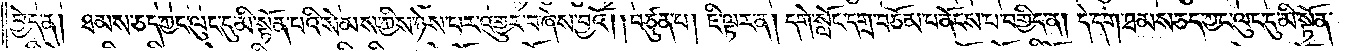བྱེད་ན། ཐམས་ཅད་ཀྱང་ལུང་དུ་མི་སྟོན་པའི་སེམས་ཀྱིས་ཉེས་པར་འགྱུར་བ་ཞེས་བྱའོ། །བཙུན་པ། ཇི་ལྟར་ན། དགེ་སློང་དགྲ་བཅོམ་པ་ནོངས་པ་བགྱིད་ན། དེ་དག་ཐམས་ཅད་ཀྱང་ལུང་དུ་མི་སྟོན་
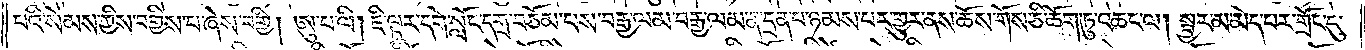པའི་སེམས་ཀྱིས་བགྱིས་པ་ཞེས་བགྱི། ཨུ་པ་ལི། ཇི་ལྟར་དགེ་སློང་དགྲ་བཅོམ་པས་བརྒྱ་ལམ་བརྒྱ་ལམ་ན་དྲན་པ་ཉམས་པར་གྱུར་ནས་ཆོས་གོས་ཅི་ཆོག་ཏུ་འཆང་ལ། སྦྱར་མ་མེད་པར་གྲོང་དུ་
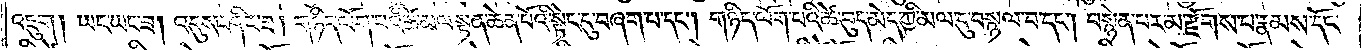འཇུག །ཡང་ཡང་ཟ། འདུས་ཤིང་ཟ། གཉིད་ལོག་པའི་ཚེ་མལ་སྟན་ཆེན་པོའི་སྟེང་དུ་བཞག་པ་དང༌། གཉིད་ལོག་པའི་ཚེ་བུད་མེད་ཀྱི་མལ་དུ་བསྙལ་བ་དང༌། བསྙེན་པར་མ་རྫོགས་པ་རྣམས་དོང་
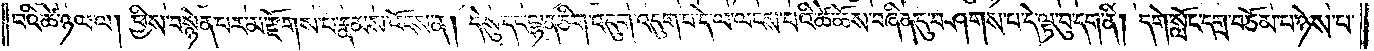བའི་ཚེ་ཉལ་ལ། ཕྱིས་བསྙེན་པར་མ་རྫོགས་པ་རྣམས་འོངས་ན། དེ་སུ་དང་ལྷན་ཅིག་འདུག་འདུག་པ་དེ་ལ་ལངས་པའི་ཚེ་ཆོས་བཞིན་དུ་བཤགས་པ་དེ་ལྟ་བུ་དག་ནི། དགེ་སློང་དགྲ་བཅོམ་པ་ཉེས་པ་
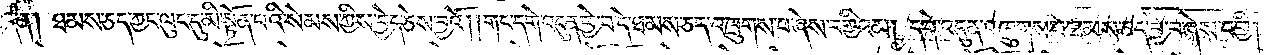བྱེད་ན། ཐམས་ཅད་ཀྱང་ལུང་དུ་མི་སྟོན་པའི་སེམས་ཀྱིས་བྱེད་ཅེས་བྱའོ། །གང་དགེ་འདུན་ཕྱེ་བ་དེ་ཐམས་ཅད་འཁྲུགས་པ་ཞེས་བགྱིའམ། དགེ་འདུན་འཁྲུགས་པ་ཐམས་ཅད་བྱེ་བ་ཞེས་བགྱི།
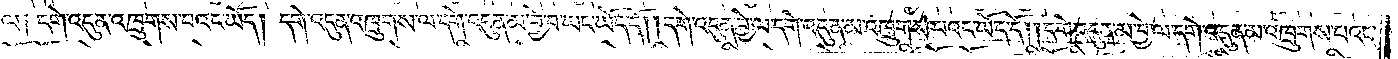ལ༑ དགེ་འདུན་འཁྲུགས་པའང་ཡོད། དགེ་འདུན་འཁྲུགས་ལ་དགེ་འདུན་མ་བྱེ་བ་ཡང་ཡོད་དོ། །དགེ་འདུན་བྱེ་ལ་དགེ་འདུན་མ་འཁྲུགས་པའང་ཡོད་དོ། །དགེ་འདུན་མ་བྱེ་ལ་དགེ་འདུན་མ་འཁྲུགས་པའང་
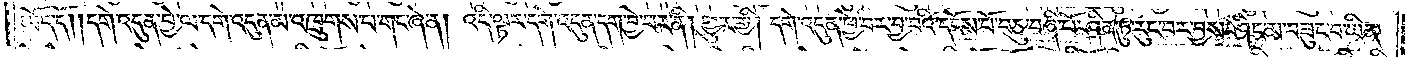ཡོད་དོ། །དགེ་འདུན་བྱེ་ལ་དགེ་འདུན་མ་འཁྲུགས་པ་གང་ཞེ་ན། འདི་ལྟར་དགེ་འདུན་དག་བྱེ་བར་ནི། གྱུར་གྱི། དགེ་འདུན་ཕྱེ་བར་བྱ་བའི་དངོས་པོ་བཅུ་བཞི་པོ་ཤིན་ཏུ་རུང་བར་བྱས་ཤིང་མ་བཟུང་བ་ཡིན་
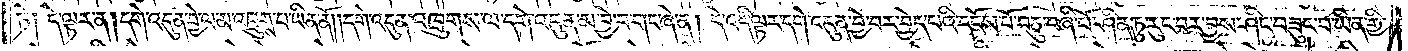ཏེ། དེ་ལྟར་ན། དགེ་འདུན་བྱེ་ལ་མ་འཁྲུགས་པ་ཡིན་ནོ། །དགེ་འདུན་འཁྲུགས་ལ་དགེ་འདུན་མ་བྱེ་བ་གང་ཞེ་ན། དེ་འདི་ལྟར་དགེ་འདུན་བྱེ་བར་བྱེད་པའི་དངོས་པོ་བཅུ་བཞི་པོ་ཤིན་ཏུ་རུང་བར་བྱས་ཤིང་བཟུང་བ་ཡིན་གྱི་
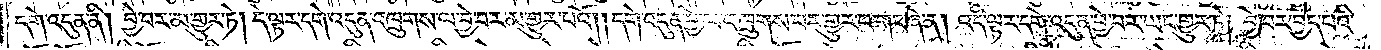དགེ་འདུན་ནི། བྱེ་བར་མ་གྱུར་ཏེ། དེ་ལྟར་དགེ་འདུན་འཁྲུགས་ལ་བྱེ་བར་མ་གྱུར་བའོ། །དགེ་འདུན་བྱེ་ལ་འཁྲུགས་པར་གྱུར་པ་གང་ཞེ་ན། འདི་ལྟར་དགེ་འདུན་བྱེ་བར་ཡང་གྱུར་ཏེ། བྱེ་བར་བྱེད་པའི་
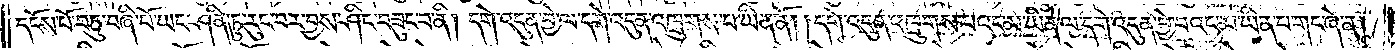དངོས་པོ་བཅུ་བཞི་པོ་ཡང་ཤིན་ཏུ་རུང་བར་བྱས་ཤིང་བཟུང་བ་ནི། དགེ་འདུན་བྱེ་ལ་དགེ་འདུན་འཁྲུགས་པ་ཡིན་ནོ། །དགེ་འདུན་འཁྲུགས་པའང་མ་ཡིན་ལ་དགེ་འདུན་བྱེ་བའང་མ་ཡིན་པ་གང་ཞེ་ན།
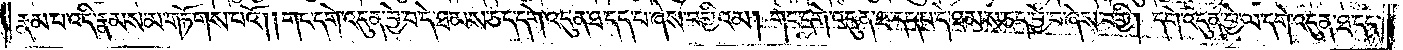རྣམ་པ་འདི་རྣམས་མ་གཏོགས་པའོ། །གང་དགེ་འདུན་བྱེ་བ་དེ་ཐམས་ཅད་དགེ་འདུན་ཐ་དད་པ་ཞེས་བགྱིའམ། གང་དགེ་འདུན་ཐ་དད་པ་དེ་ཐམས་ཅད་བྱེ་བ་ཞེས་བགྱི། དགེ་འདུན་བྱེ་ལ་དགེ་འདུན་ཐ་དད་
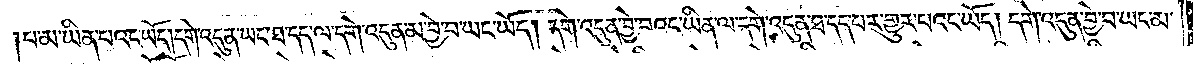པ་མ་ཡིན་པའང་ཡོད། དགེ་འདུན་ཡང་ཐ་དད་ལ་དགེ་འདུན་མ་བྱེ་བ་ཡང་ཡོད། དགེ་འདུན་བྱེ་བའང་ཡིན་ལ་དགེ་འདུན་ཐ་དད་པར་གྱུར་པའང་ཡོད། དགེ་འདུན་བྱེ་བ་ཡང་མ་
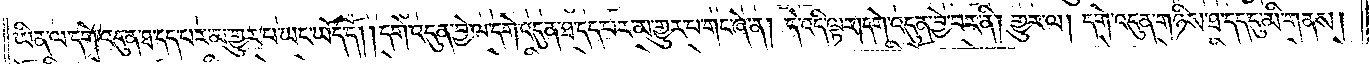ཡིན་ལ་དགེ་འདུན་ཐ་དད་པར་མ་གྱུར་པ་ཡང་ཡོད་དོ། །དགེ་འདུན་བྱེ་ལ་དགེ་འདུན་ཐ་དད་པར་མ་གྱུར་པ་གང་ཞེ་ན། དེ་འདི་ལྟར། དགེ་འདུན་བྱེ་བར་ནི། གྱུར་ལ། དགེ་འདུན་གཉིས་ཐ་དད་དུ་མི་གནས།
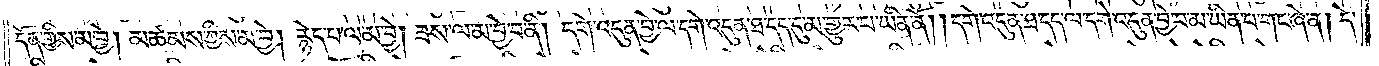དོན་གྱིས་མ་བྱེ། མཚམས་ཀྱིས་མ་བྱེ། རྙེད་པ་ལ་མ་བྱེ། ཟས་ལ་མ་བྱེ་བ་ནི། དགེ་འདུན་བྱེ་ལ་དགེ་འདུན་ཐ་དད་དུ་མ་གྱུར་པ་ཡིན་ནོ། །དགེ་འདུན་ཐ་དད་ལ་དགེ་འདུན་བྱེ་བ་མ་ཡིན་པ་གང་ཞེ་ན། དེ་
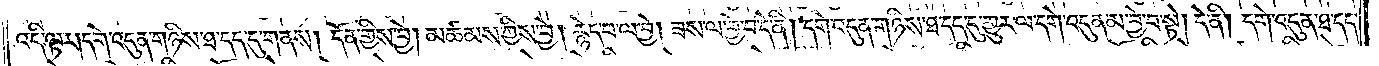འདི་ལྟར། དགེ་འདུན་གཉིས་ཐ་དད་དུ་གནས། དོན་གྱིས་བྱེ། མཚམས་ཀྱིས་བྱེ། རྙེད་པ་ལ་བྱེ། ཟས་ལ་བྱེ་བ་དེ་ནི། དགེ་འདུན་གཉིས་ཐ་དད་དུ་གྱུར་ལ་དགེ་དུན་མ་བྱེ་བ་སྟེ། དེ་ནི། དགེ་འདུན་ཐ་དད་
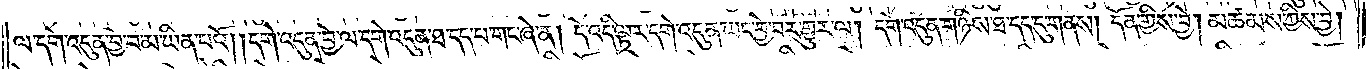ལ་དགེ་འདུན་བྱེ་བ་མ་ཡིན་པའོ། །དགེ་འདུན་བྱེ་ལ་དགེ་འདུན་ཐ་དད་པ་གང་ཞེ་ན། དེ་འདི་ལྟར་དགེ་འདུན་ཡང་བྱེ་བར་གྱུར་ལ། དགེ་འདུན་གཉིས་ཐ་དད་དུ་གནས། དོན་གྱིས་བྱེ། མཚམས་ཀྱིས་བྱེ།
